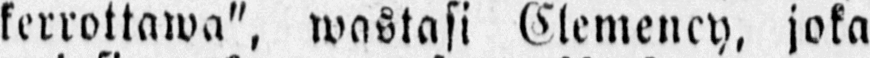kerrottawa", wastasi Clemency, joka
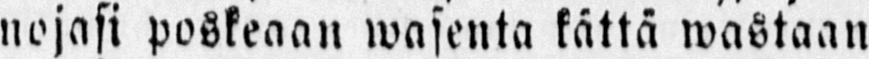nojasi poskeaan wasenta kättä wastaan
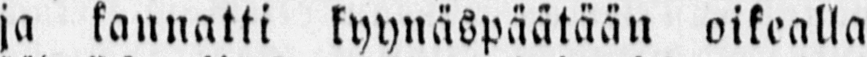ja kannatti kyynäspäätään oikealla
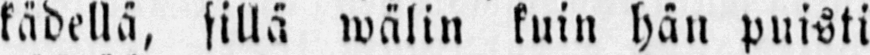kädellä, sillä wälin kuin hän puisti
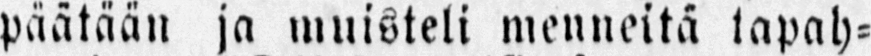päätään ja muisteli menneitä tapah-
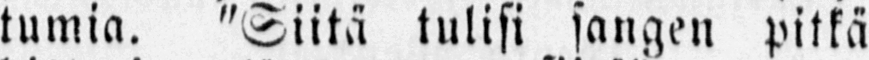tumia. "Siitä tulisi sangen pitkä
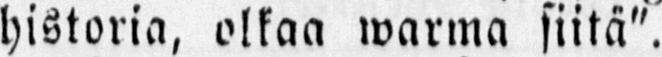historia, olkaa warma siitä".
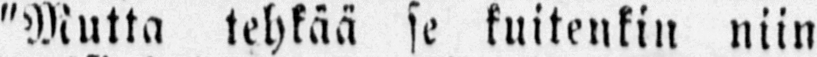"Mutta tehkää se kuitenkin niin
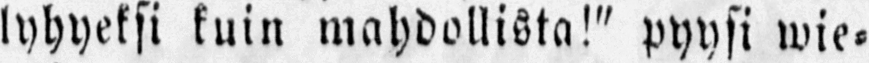lyhyeksi kuin mahdollista!" pyysi wie-
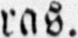ras.
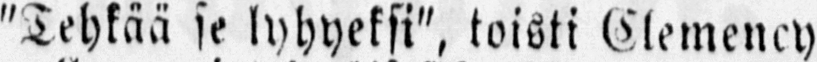"Tehkää se lyhyeksi", toisti Clemeney
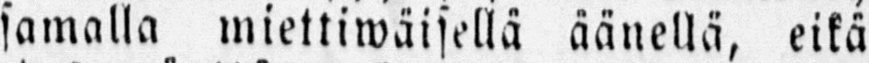samalla miettiwäisellä äänellä, eikä
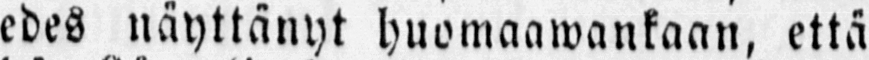edes näyttänyt huomaawankaan, että
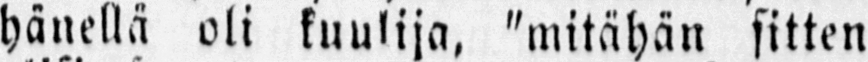hänellä oli kuulija, "mitähän sitten
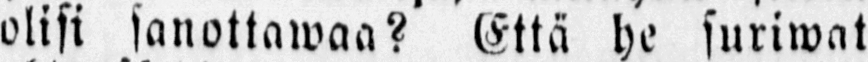olisi sanottawaa? Että he suriwat
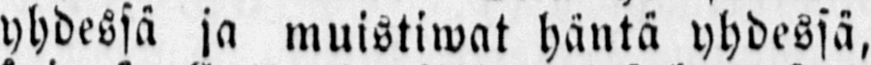yhdessä ja muistiwat häntä yhdessä,
